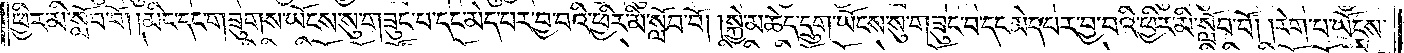ཕྱིར་མི་སློབ་བོ། །མིང་དང་གཟུགས་ཡོངས་སུ་གཟུང་བ་དང་མེད་པར་བྱ་བའི་ཕྱིར་མི་སློབ་བོ། །སྐྱེ་མཆེད་དྲུག་ཡོངས་སུ་གཟུང་བ་དང་མེད་པར་བྱ་བའི་ཕྱིར་མི་སློབ་བོ། །རེག་པ་ཡོངས་
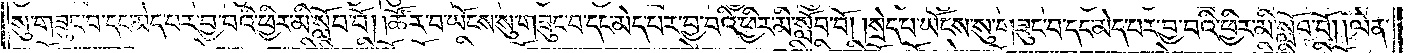སུ་གཟུང་བ་དང་མེད་པར་བྱ་བའི་ཕྱིར་མི་སློབ་བོ། །ཚོར་བ་ཡོངས་སུ་གཟུང་བ་དང་མེད་པར་བྱ་བའི་ཕྱིར་མི་སློབ་བོ། །སྲེད་པ་ཡོངས་སུ་གཟུང་བ་དང་མེད་པར་བྱ་བའི་ཕྱིར་མི་སློབ་བོ། །ལེན་
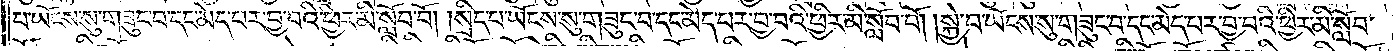པ་ཡོངས་སུ་གཟུང་བ་དང་མེད་པར་བྱ་བའི་ཕྱིར་མི་སློབ་བོ། །སྲིད་པ་ཡོངས་སུ་གཟུང་བ་དང་མེད་པར་བྱ་བའི་ཕྱིར་མི་སློབ་བོ། །སྐྱེ་བ་ཡོངས་སུ་གཟུང་བ་དང་མེད་པར་བྱ་བའི་ཕྱིར་མི་སློབ་
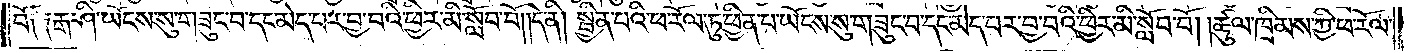བོ༑ ༑རྒ་ཤི་ཡོངས་སུ་གཟུང་བ་དང་མེད་པར་བྱ་བའི་ཕྱིར་མི་སློབ་བོ། །དེ་ནི། སྦྱིན་པའི་ཕ་རོལ་ཏུ་ཕྱིན་པ་ཡོངས་སུ་གཟུང་བ་དང་མེད་པར་བྱ་བའི་ཕྱིར་མི་སློབ་བོ། །ཚུལ་ཁྲིམས་ཀྱི་ཕ་རོལ་
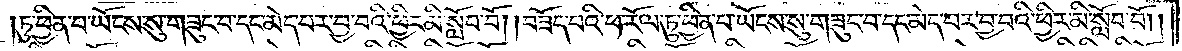ཏུ་ཕྱིན་པ་ཡོངས་སུ་གཟུང་བ་དང་མེད་པར་བྱ་བའི་ཕྱིར་མི་སློབ་བོ། །བཟོད་པའི་ཕ་རོལ་ཏུ་ཕྱིན་པ་ཡོངས་སུ་གཟུང་བ་དང་མེད་པར་བྱ་བའི་ཕྱིར་མི་སློབ་བོ༎
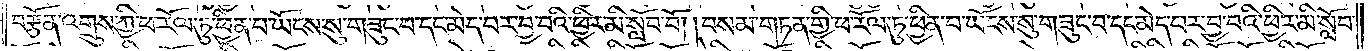བརྩོན་འགྲུས་ཀྱི་ཕ་རོལ་ཏུ་ཕྱིན་པ་ཡོངས་སུ་གཟུང་བ་དང་མེད་པར་བྱ་བའི་ཕྱིར་མི་སློབ་བོ། །བསམ་གཏན་གྱི་ཕ་རོལ་ཏུ་ཕྱིན་པ་ཡོངས་སུ་གཟུང་བ་དང་མེད་པར་བྱ་བའི་ཕྱིར་མི་སློབ་
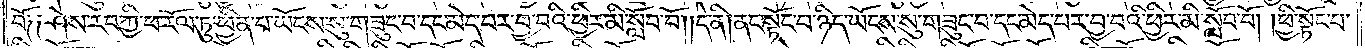བོ༑ ༑ཤེས་རབ་ཀྱི་ཕ་རོལ་ཏུ་ཕྱིན་པ་ཡོངས་སུ་གཟུང་བ་དང་མེད་པར་བྱ་བའི་ཕྱིར་མི་སློབ་བོ། །དེ་ནི། ནང་སྟོང་པ་ཉིད་ཡོངས་སུ་གཟུང་བ་དང་མེད་པར་བྱ་བའི་ཕྱིར་མི་སློབ་བོ། །ཕྱི་སྟོང་པ་
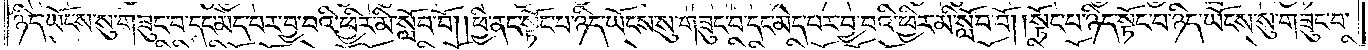ཉིད་ཡོངས་སུ་གཟུང་བ་དང་མེད་པར་བྱ་བའི་ཕྱིར་མི་སློབ་བོ། །ཕྱི་ནང་སྟོང་པ་ཉིད་ཡོངས་སུ་གཟུང་བ་དང་མེད་པར་བྱ་བའི་ཕྱིར་མི་སློབ་བོ། །སྟོང་པ་ཉིད་སྟོང་པ་ཉིད་ཡོངས་སུ་གཟུང་བ་
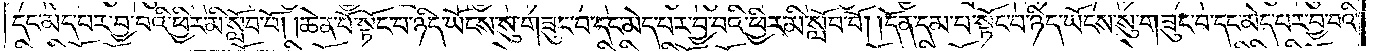དང་མེད་པར་བྱ་བའི་ཕྱིར་མི་སློབ་བོ། །ཆེན་པོ་སྟོང་པ་ཉིད་ཡོངས་སུ་གཟུང་བ་དང་མེད་པར་བྱ་བའི་ཕྱིར་མི་སློབ་བོ། །དོན་དམ་པ་སྟོང་པ་ཉིད་ཡོངས་སུ་གཟུང་བ་དང་མེད་པར་བྱ་བའི་
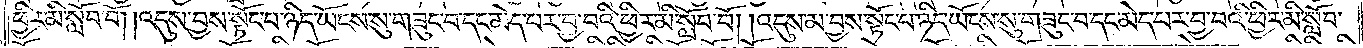ཕྱིར་མི་སློབ་བོ། །འདུས་བྱས་སྟོང་པ་ཉིད་ཡོངས་སུ་གཟུང་བ་དང་མེད་པར་བྱ་བའི་ཕྱིར་མི་སློབ་བོ། །འདུས་མ་བྱས་སྟོང་པ་ཉིད་ཡོངས་སུ་གཟུང་བ་དང་མེད་པར་བྱ་བའི་ཕྱིར་མི་སློབ་
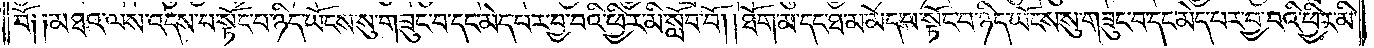བོ༑ ༑མཐའ་ལས་འདས་པ་སྟོང་པ་ཉིད་ཡོངས་སུ་གཟུང་བ་དང་མེད་པར་བྱ་བའི་ཕྱིར་མི་སློབ་བོ། །ཐོག་མ་དང་ཐ་མ་མེད་པ་སྟོང་པ་ཉིད་ཡོངས་སུ་གཟུང་བ་དང་མེད་པར་བྱ་བའི་ཕྱིར་མི་
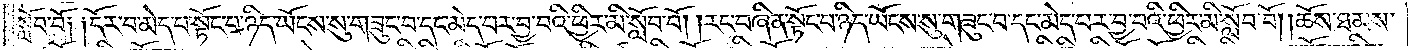སློབ་བོ༑ ༑དོར་བ་མེད་པ་སྟོང་པ་ཉིད་ཡོངས་སུ་གཟུང་བ་དང་མེད་པར་བྱ་བའི་ཕྱིར་མི་སློབ་བོ། །རང་བཞིན་སྟོང་པ་ཉིད་ཡོངས་སུ་གཟུང་བ་དང་མེད་པར་བྱ་བའི་ཕྱིར་མི་སློབ་བོ། །ཆོས་ཐམས་
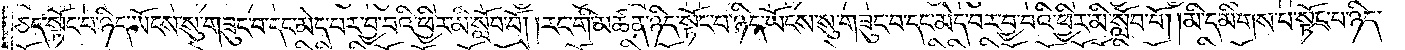ཅད་སྟོང་པ་ཉིད་ཡོངས་སུ་གཟུང་བ་དང་མེད་པར་བྱ་བའི་ཕྱིར་མི་སློབ་བོ། །རང་གི་མཚན་ཉིད་སྟོང་པ་ཉིད་ཡོངས་སུ་གཟུང་བ་དང་མེད་པར་བྱ་བའི་ཕྱིར་མི་སློབ་བོ། །མི་དམིགས་པ་སྟོང་པ་ཉིད་
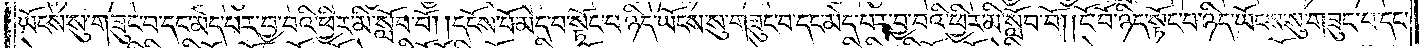ཡོངས་སུ་གཟུང་བ་དང་མེད་པར་བྱ་བའི་ཕྱིར་མི་སློབ་བོ། །དངོས་པོ་མེད་པ་སྟོང་པ་ཉིད་ཡོངས་སུ་གཟུང་བ་དང་མེད་པར་བྱ་བའི་ཕྱིར་མི་སློབ་བོ། །ངོ་བོ་ཉིད་སྟོང་པ་ཉིད་ཡོངས་སུ་གཟུང་བ་དང་
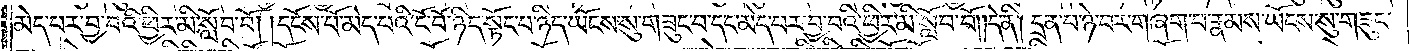མེད་པར་བྱ་བའི་ཕྱིར་མི་སློབ་བོ། །དངོས་པོ་མེད་པའི་ངོ་བོ་ཉིད་སྟོང་པ་ཉིད་ཡོངས་སུ་གཟུང་བ་དང་མེད་པར་བྱ་བའི་ཕྱིར་མི་སློབ་བོ། །དེ་ནི། དྲན་པ་ཉེ་བར་གཞག་པ་རྣམས་ཡོངས་སུ་གཟུང་
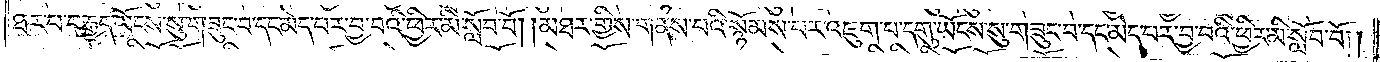ཐར་པ་བརྒྱད་ཡོངས་སུ་གཟུང་བ་དང་མེད་པར་བྱ་བའི་ཕྱིར་མི་སློབ་བོ། །མཐར་གྱིས་གནས་པའི་སྙོམས་པར་འཇུག་པ་དགུ་ཡོངས་སུ་གཟུང་བ་དང་མེད་པར་བྱ་བའི་ཕྱིར་མི་སློབ་བོ༎
